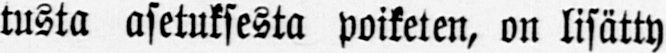tusta asetuksesta poiketen, on lisätty
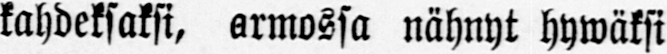kahdeksaksi, armossa nähnyt hywäksi
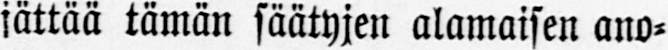jättää tämän säätyjen alamaisen ano-
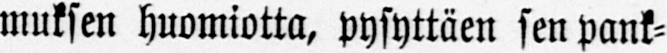muksen huomiotta, pysyttäen sen pank-
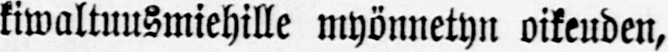kiwaltuusmiehille myönnetyn oikeuden,
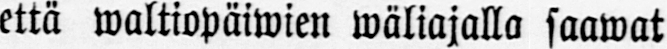että waltiopäiwien wäliajalla saawat
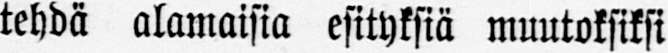tehdä alamaisia esityksiä muutoksiksi
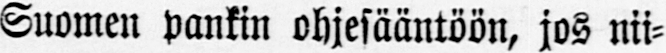Suomen pankin ohjesääntöön, jos nii-
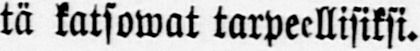tä katsowat tarpeellisiksi.
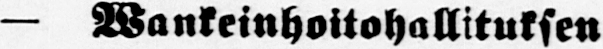— Wankeinhoitohallituksen
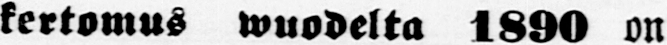kertomus wuodelta 1890 on
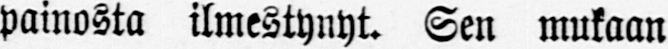painosta ilmestynyt. Sen mukaan
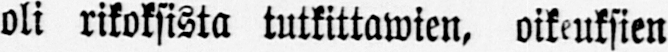oli rikoksista tutkittawien, oikeuksien
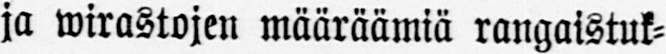ja wirastojen määräämiä rangaistuk-
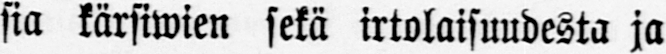sia kärsiwien sekä irtolaisuudesta ja
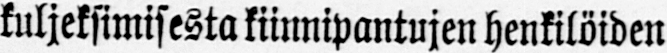kuljeksimisesta kiinnipantujen henkilöiden
